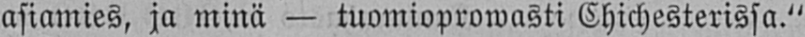asiamies, ja minä — tuomioprowasti Chichesterissa."
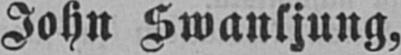John Swanljung,
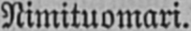Nimituomari.
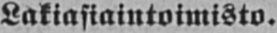Lakiasiaintoimisto.
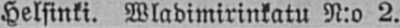Helsinki. Wladimirinkatu N:o 2.
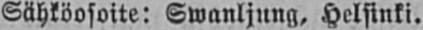Sähköosoite: Swanljung, Helsinki.
